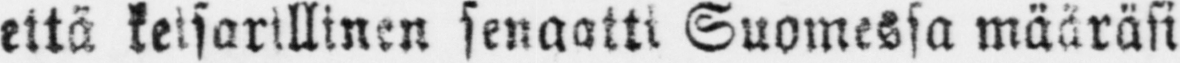että keisarillinen senaatti Suomessa määräsi
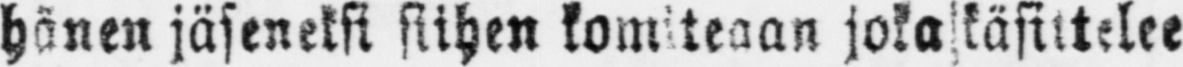hänen jäseneksi siihen komiteaan joka käsittelee
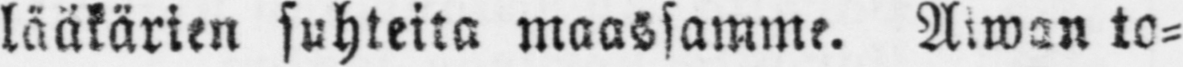lääkärien suhteita maassamme. Aiwan to-
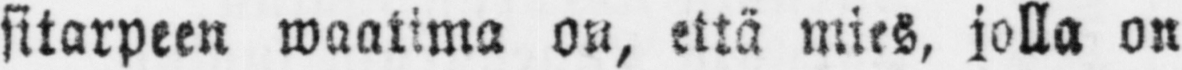sitarpeen waatima on, että mies, jolla on
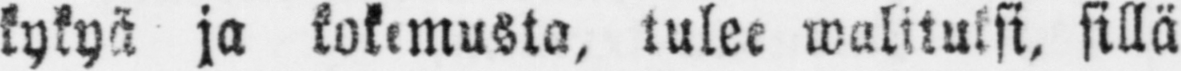kykyä ja kokemusta, tulee walituksi, sillä
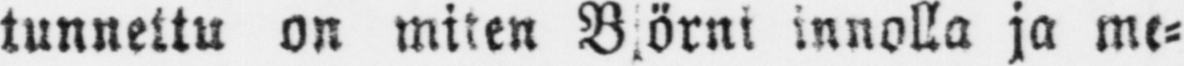tunnettu on miten Björni innolla ja me-
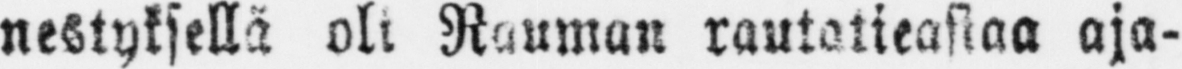nestyksellä oli Rauman rautatieasiaa aja-
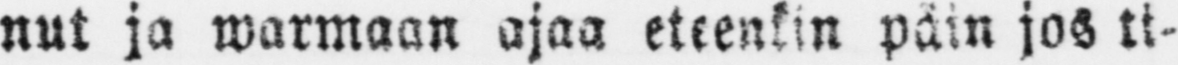nut ja warmaan ajaa eteenkin päin jos ti-
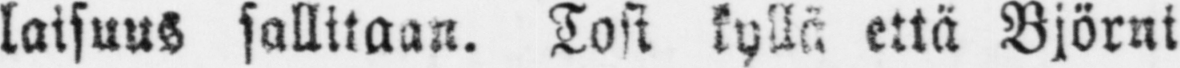laisuus sallitaan. Tosi kyllä että Björni
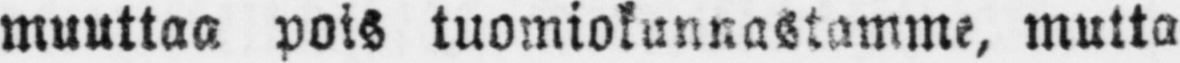muuttaa pois tuomiokunnastamme, mutta
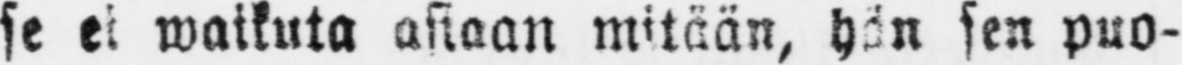se ei waikuta asiaan mitään, hän sen puo-
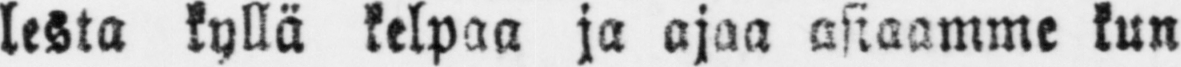lesta kyllä kelpaa ja ojaa asiaamme kun
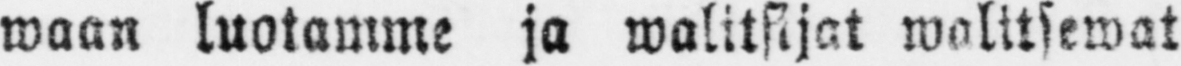waan luotamme ja walitsijat walitsewat
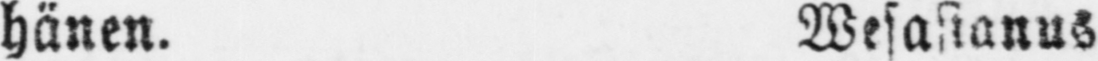hänen. Wesastanus
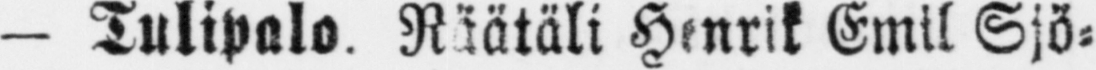— Tulipalo. Räätäli Henrik Emil Sjö-
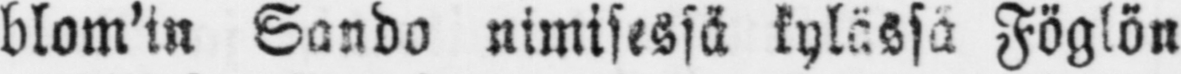blom'in Sando nimisessä kylässä Föglön
